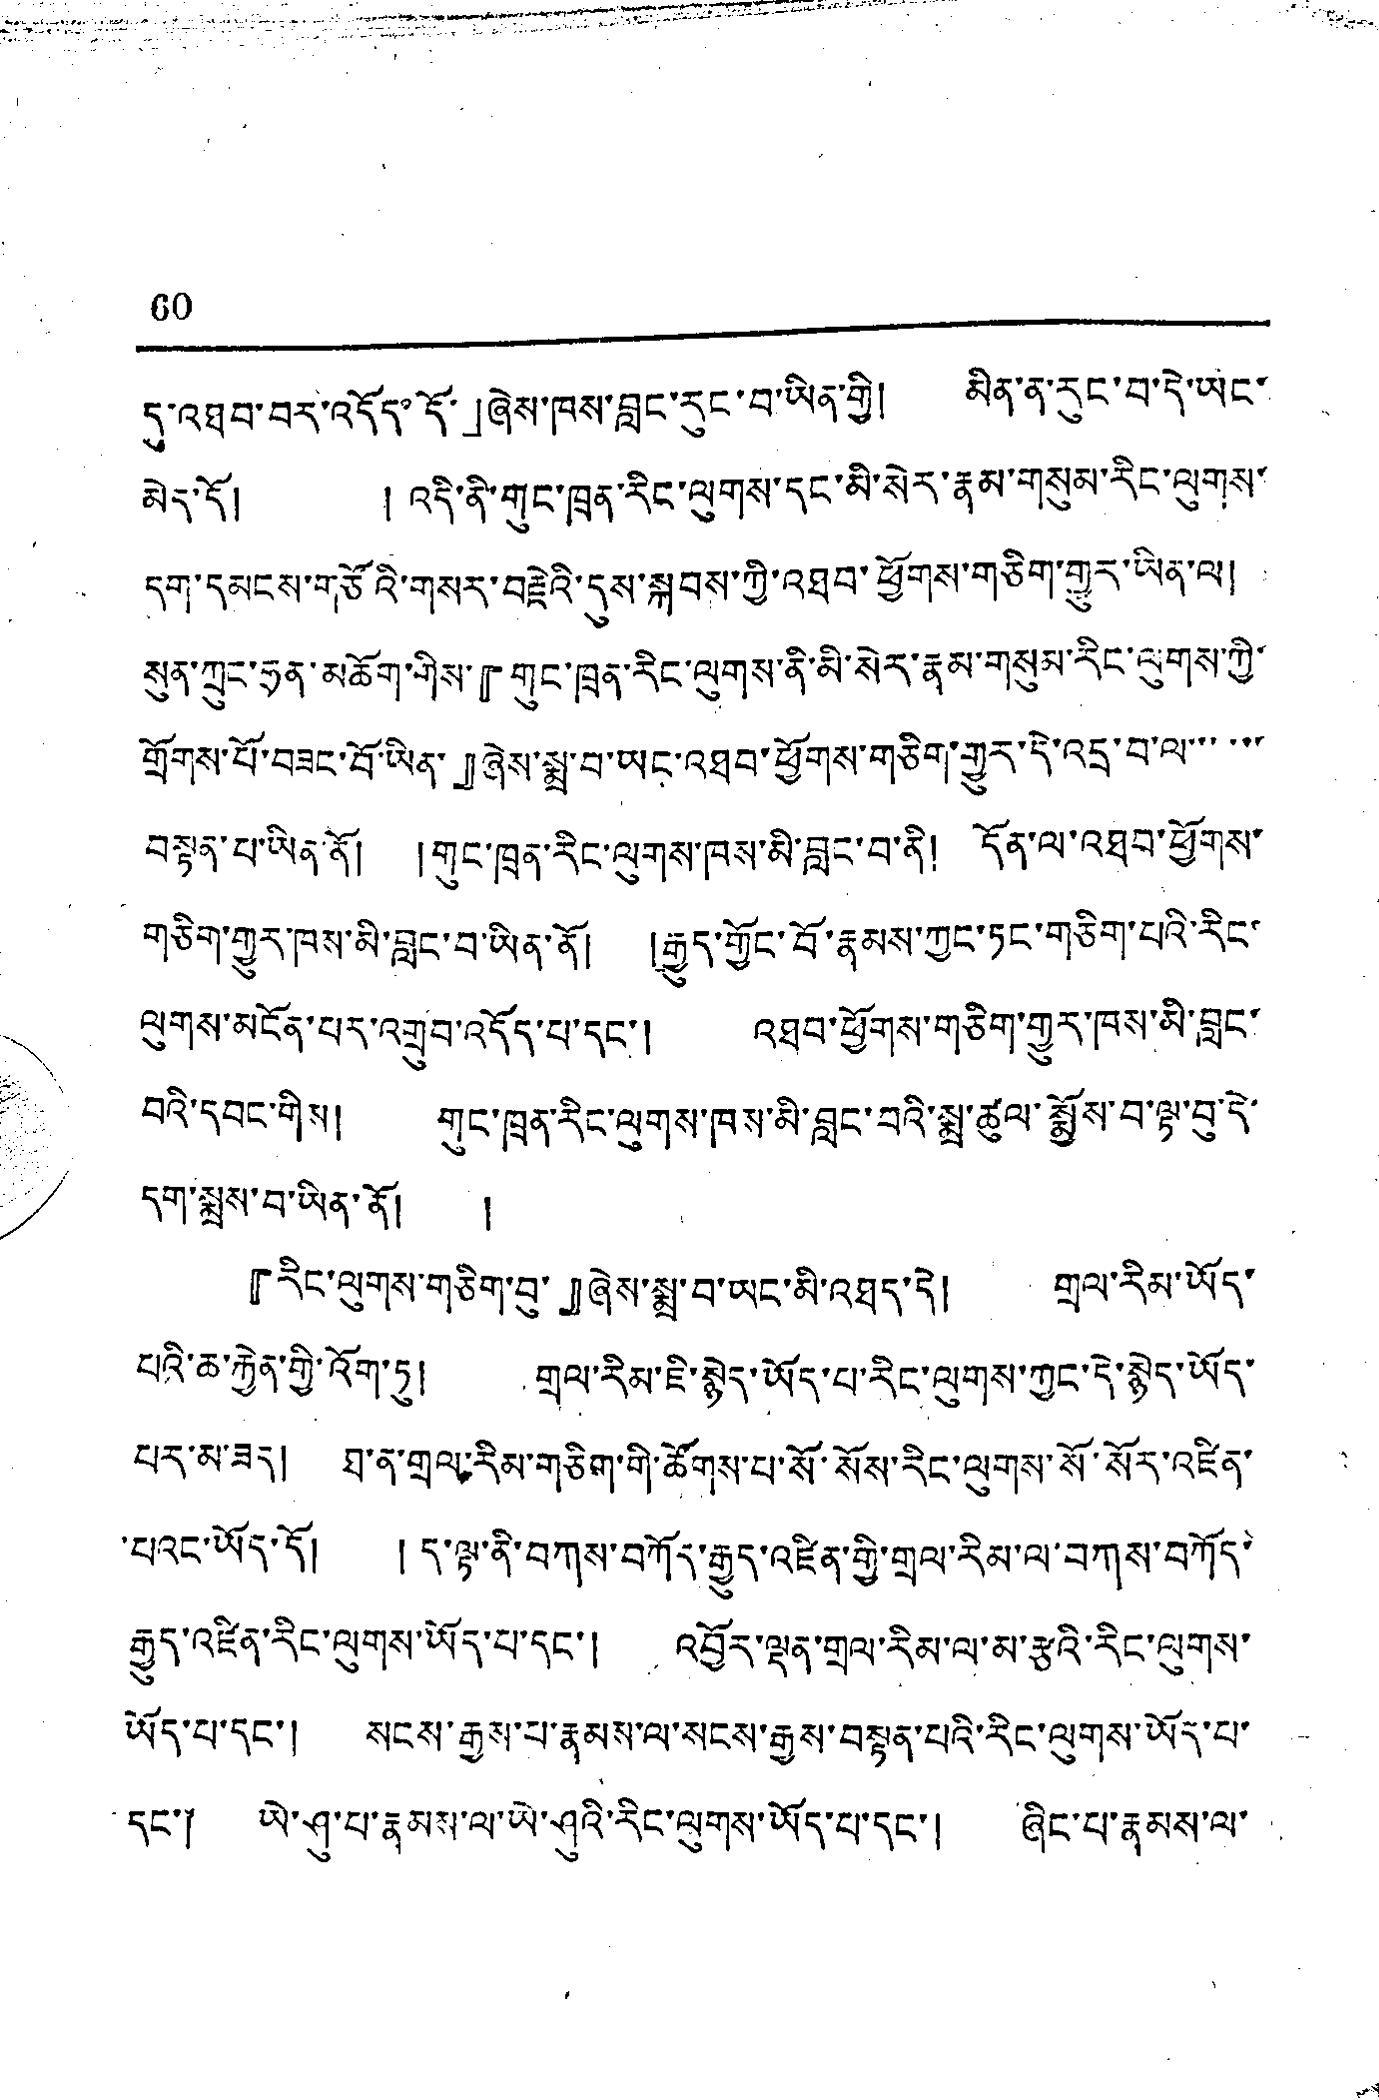60
དུ་འཐབ་བར་འདོད་དོ་」ཞེས་ཁས་བླང་རུང་བ་ཡིན་གྱི། མིན་ན་རུང་བ་དེ་ཡང་
མེད་དོ། ། འདི་ནི་གུང་ཁྲན་རིང་ལུགས་དང་མི་སེར་རྣམ་གསུམ་རིང་ལུགས་
དག་དམངས་གཙོའི་གསར་བརྗེའི་དུས་སྐབས་ཀྱི་འཐབ་ཕྱོགས་གཅིག་གྱུར་ཡིན་ལ།
སུན་ཀྲུང་ཧྲན་མཆོག་གིས་『གུང་ཁྲན་རིང་ལུགས་ནི་མི་སེར་རྣམ་གསུམ་རིང་ལུགས་ཀྱི་
གྲོགས་པོ་བཟང་བོ་ཡིན་』ཞེས་སྨྲ་བ་ཡང་འཐབ་ཕྱོགས་གཅིག་གྱུར་དེ་འདྲ་བ་ལ་་་་་་
བསྟན་པ་ཡིན་ནོ། །གུང་ཁྲན་རིང་ལུགས་ཁས་མི་བླང་བ་ནི། དོན་ལ་འཐབ་ཕྱོགས་
གཅིག་གྱུར་ཁས་མི་བླང་བ་ཡིན་ནོ། །རྒྱུད་གྱོང་བོ་རྣམས་ཀྱང་ཏང་གཅིག་པའི་རིང་
ལུགས་མངོན་པར་འགྲུབ་འདོད་པ་དང་། འཐབ་ཕྱོགས་གཅིག་གྱུར་ཁས་མི་བླང་
བའི་དབང་གིས། གུང་ཁྲན་རིང་ལུགས་ཁས་མི་བླང་བའི་སྨྲ་ཚུལ་སྨྱོས་བ་ལྟ་བུ་དེ་
དག་སྨྲས་བ་ཡིན་ནོ། །
『རིང་ལུགས་གཅིག་བུ་』ཞེས་སྨྲ་བ་ཡང་མི་འཐད་དེ། གྲལ་རིམ་ཡོད་
པའི་ཆ་རྐྱེན་གྱི་འོག་ཏུ། གྲལ་རིམ་ཇི་སྙེད་ཡོད་པ་རིང་ལུགས་ཀྱང་དེ་སྙེད་ཡོད་
པར་མ་ཟད། ཐ་ན་གྲལ་རིམ་གཅིག་གི་ཚོགས་པ་སོ་སོས་རིང་ལུགས་སོ་སོར་འཛིན་
པའང་ཡོད་དོ། །ད་ལྟ་ནི་བཀས་བཀོར་རྒྱུད་འཛིན་གྱི་གྲལ་རིམ་ལ་བཀས་བཀོད་
རྒྱུད་འཛིན་རིང་ལུགས་ཡོད་པ་དང་། འབྱོར་ལྡན་གྲལ་རིམ་ལ་མ་རྩའི་རིང་ལུགས་
ཡོད་པ་དང་། སངས་རྒྱས་པ་རྣམས་ལ་སངས་རྒྱས་བསྟན་པའི་རིང་ལུགས་ཡོད་པ་
དང་། ཡེ་ཤུ་པ་རྣམས་ལ་ཡེ་ཤུའི་རིང་ལུགས་ཡོད་པ་དང་། ཞིང་པ་རྣམས་ལ་
